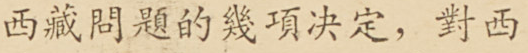西藏問題的幾項決定，對西
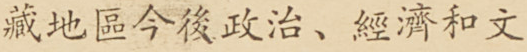藏地區今後政治、經濟和文
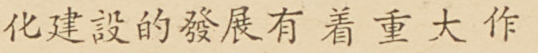化建設的發展有着重大作
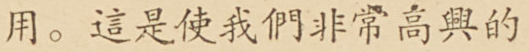用。這是使我們非常高興的
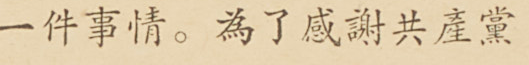一件事情。為了感謝共產黨
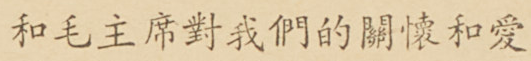和毛主席對我們的關懷和愛
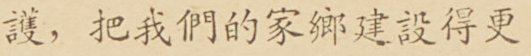護，把我們的家鄉建設得更
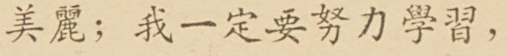美麗；我一定要努力學習，
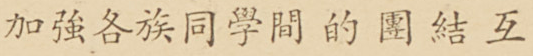加強各族同學間的團結互
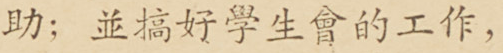助；並搞好學生會的工作，
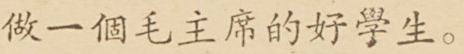做一個毛主席的好學生。
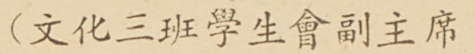（文化三班學生會副主席
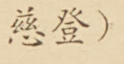慈登）
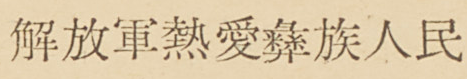解放軍熱愛彝族人民
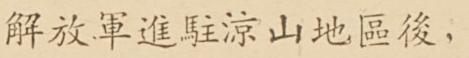解放軍進駐涼山地區後，
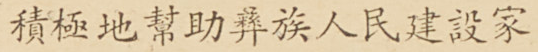積極地幫助彝族人民建設家
